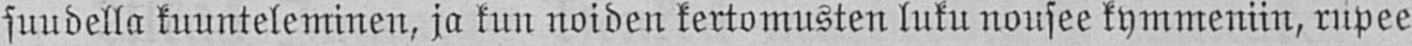suudella kuunteleminen, ja kun noiden kertomusten luku nousee kymmeniin, rupee
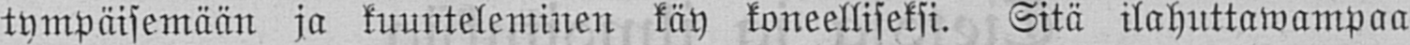tympäisemään ja kuunteleminen käy koneelliseksi. Sitä ilahuttawampaa
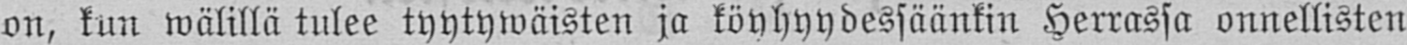on, kun wälillä tulee tyytywäisten ja köyhyydessäänkin Herrassa onnellisten
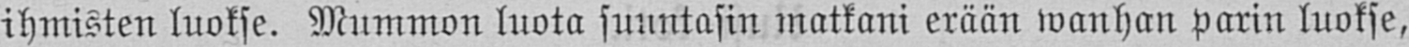ihmisten luokse. Mummon luota suuntasin matkani erään wanhan parin luokse,
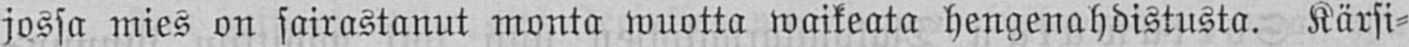jossa mies on sairastanut monta wuotta waikeata hengenahdistusta. Kärsi-
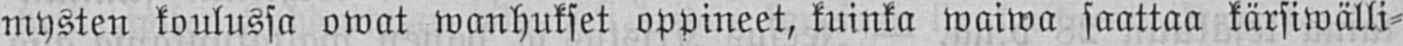mysten koulussa owat wanhukset oppineet, kuinka waiwa saattaa kärsiwälli-
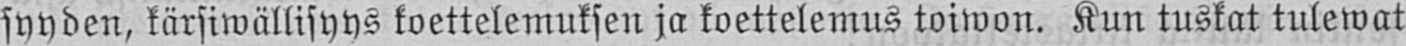syyden, kärsiwällisyys koettelemuksen ja koettelemus toiwon. Kun tuskat tulewat
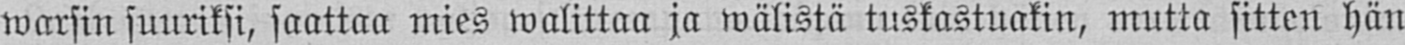warsin suuriksi, saattaa mies walittaa ja wälistä tuskastuakin, mutta sitten hän
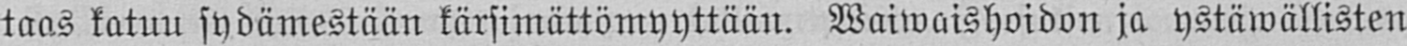taas katuu sydämestään kärsimättömyyttään. Waiwaishoidon ja ystäwällisten
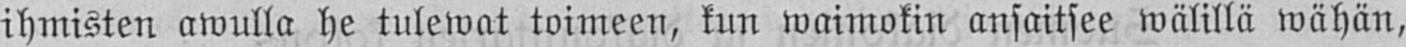ihmisten awulla he tulewat toimeen, kun waimokin ansaitsee wälillä wähän,
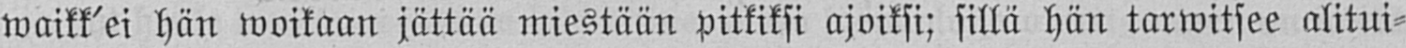waikk'ei hän woikaan jättää miestään pitkiksi ajoiksi; sillä hän tarwitsee alitui-
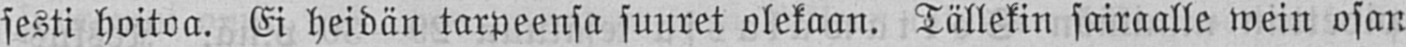sesti hoitoa. Ei heidän tarpeensa suuret olekaan. Tällekin sairaalle wein osan
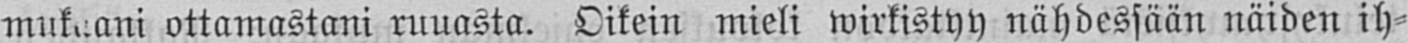mukaani ottamastani ruuasta. Oikein mieli wirkistyy nähdessään näiden ih-
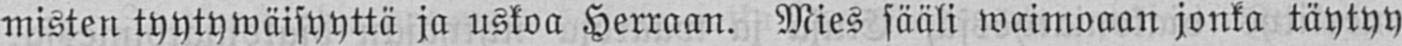misten tyytywäisyyttä ja uskoa Herraan. Mies sääli waimoaan jonka täytyy
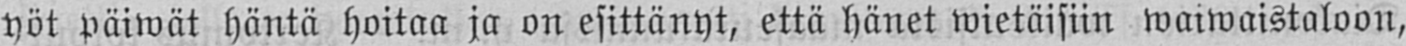yöt päiwät häntä hoitaa ja on esittänyt, että hänet wietäisiin waiwaistaloon,
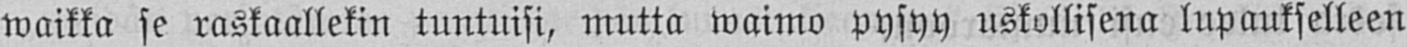waikka se raskaallekin tuntuisi, mutta waimo pysyy uskollisena lupaukselleen
